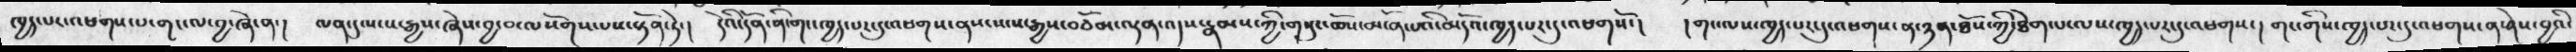ཁྱད་པར་འཕགས་པ་གང་ལ་བྱ་ཞེ་ན་།  ལན་དུ་སངས་རྒྱས་ཞེས་བྱ་བ་ལསོགས་པས་སྟོན་ཏེ་།   དེའི་དོན་ནི་གང་ཁྱད་པར་དུ་འཕགས་ནས་སངས་རྒྱས་བཅོམ་ལྡན་འདས་རྣམས་ཀྱི་གསུང་ཆོས་མངོན་པའི་མདོའ་ཁྱད་པར་དུ་འཕགསོ་།  ། གང་ལས་ཁྱད་པར་དུ་འཕགས་ན་ཉན་ཐོས་ཀྱི་ཐེག་པ་ལས་ཁྱད་པར་དུ་འཕགས་།  གང་གིས་ཁྱད་པར་དུ་འཕགས་ན་ཤེས་བྱའི་
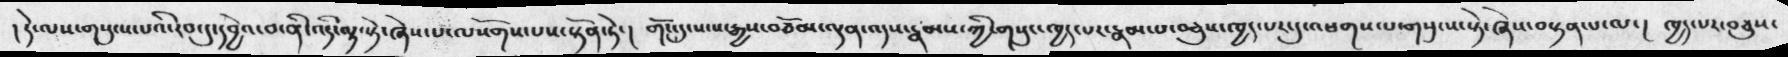།དེ་ལས་གསུངས་པའི་རབ་དུ་དབྱེའ་བ་ནི་འདི་ལྟ་སྟེ་ཞེས་པ་ལསོགས་པས་སྟོན་ཏེ་།  གོང་དུ་སངས་རྒྱས་བཅོམ་ལྡན་འདས་རྣམས་ཀྱི་གསུང་ཁྱད་པར་རྣམ་པ་བཅུས་ཁྱད་པར་དུ་འཕགས་པ་གསུངས་སྟེ་ཞེས་བསྟན་པ་ལ་།  ཁྱད་པར་བཅུས་
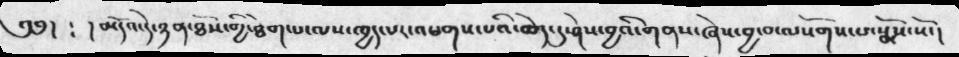༄༅།  ༴ །མདོའ་དེ་ཉན་ཐོས་གྱི་ཐེག་པ་ལས་ཁྱད་པར་འཕགས་པའི་ཆེད་དུ་ཤེས་བྱའི་གནས་ཞེས་བྱ་བ་ལསོགས་པ་སྨོས་སོ་།
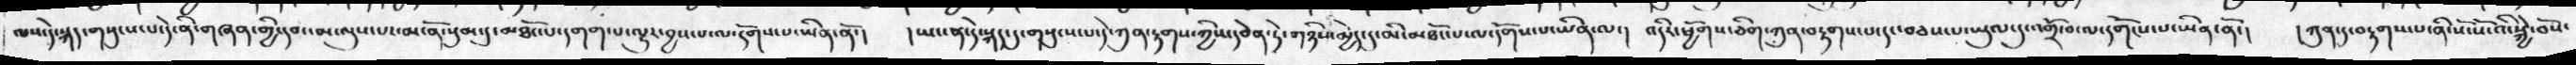ལས་དེ་སྐད་གསུངས་པ་དེ་ནི་གཞན་གྱི་དབང་མ་ལུས་པ་མངོན་སུམ་དུ་མཐོང་པ་དགག་པ་ལྟུར་བྱས་པ་ལ་དོགས་པ་ཡིན་ནོ་།   །ཡང་ན་དེ་སྐད་དུ་གསུངས་པ་དེ་ཀུན་རྟགས་ཀྱིས་དབེན་དེ་གཉིས་མྱེད་དུ་མི་མཐོང་པ་ལ་དགོས་པ་ཡིན་ལ་།  འདིར་ཕྱོགས་ཅིག་ཀུན་བརྟགས་པ་དང་བཅས་པ་ཡུལ་དུ་འགྲོ་བ་ལ་དགོངས་པ་ཡིན་ནོ་།  །ཀུན་དུ་བརྟགས་པ་ནི་སོ་སོ་འི་སྐྱེ་བོས་
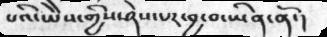པའི་ཡེེས་གྱིས་ཉེས་པར་བྱ་བ་ཡིན་ནོ་།
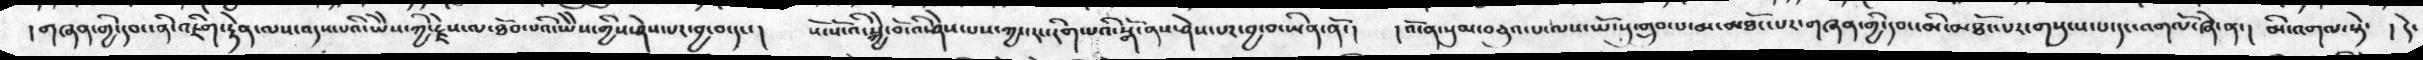།གཞན་གྱི་དབང་ནི་འཇིག་རྟེན་ལས་འདས་པའི་ཡེེས་ཀྱི་རྗེས་ལ་ཐོབ་པའི་ཡེེས་གྱིས་ཤེས་པར་བྱ་བ་དང་།  སོ་སོ་འི་སྐྱེ་བོ་འི་ཤེས་པས་ཀྱང་རང་རིག་པའི་སྒོ་ནས་ཤེས་པར་བྱ་བ་ཡིན་ནོ་། ། འོ་ན་སུམ་བཅུའ་པ་ལས་ཡོངསུ་གྲུབ་པ་མ་མཐོང་པར་གཞན་གྱི་དབང་མི་མཐོང་པར་གསུངས་པ་དང་འགལོ་ཞེ་ན་།  མི་འགལ་སྟེ་  ། དེ་
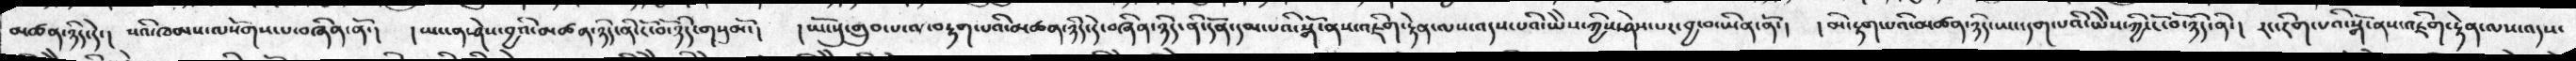མཚན་ཉིད་དེ་།  སའི་ཁམས་ལསོགས་པ་བཞིན་ནོ་།  ། ཡང་ན་ཤེས་བྱའི་མཚན་ཉིད་ནི་ངོ་བོ་ཉིད་གསུམོ་།  །ཡོངསུ་གྲུབ་པ་ལ་བརྟག་པའི་མཚན་ཉིད་དེ་བཞིན་ཉིད་ནི་དོན་དམ་པའི་སྒོ་ནས་འཇིག་རྟེན་ལས་འདས་པའི་ཡེེས་ཀྱིས་ཤེས་པར་བྱ་བ་ཡིན་ནོ་།  །མི་རྟག་པའི་མཚན་ཉིད་ཡང་དག་པའི་ཡེེས་ཀྱི་ངོ་བོ་ཉིད་ནི་།  རང་རིག་པའི་སྒོ་ནས་འཇིག་རྟེན་ལས་འདས་
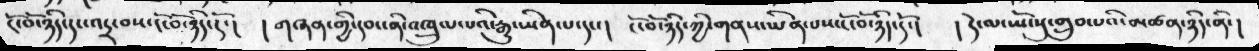ངོ་བོ་ཉིད་དང་འདྲ་བས་ངོ་བོ་ཉིད་དོ་།  ། གཞན་གྱི་དབང་ནི་འཁྲུལ་པའི་རྒྱུ་ཡིན་པ་དང་།   ངོ་བོ་ཉིད་ཀྱི་གནས་ཡིན་པས་ངོ་བོ་ཉིད་དོ་།  ། དེ་ལ་ཡོངསུ་གྲུབ་པའི་མཚན་ཉིད་ནི་།
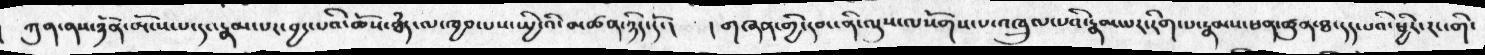ཀུན་ནས་ཉོན་མོངས་པ་དང་རྣམ་པར་བྱང་པའི་ཆོས་ཐཾད་ལ་ཁྱབ་པས་སྤྱི་འི་མཚན་ཉིད་དོ་།  ། གཞན་གྱི་དབང་ནི་ལུས་ལསོགས་པ་འཁྲུལ་པའི་རྣམ་པར་རིག་པ་རྣམས་ཕན་ཚུན་ཐ་དད་པའི་ཕྱིར་རང་གི་
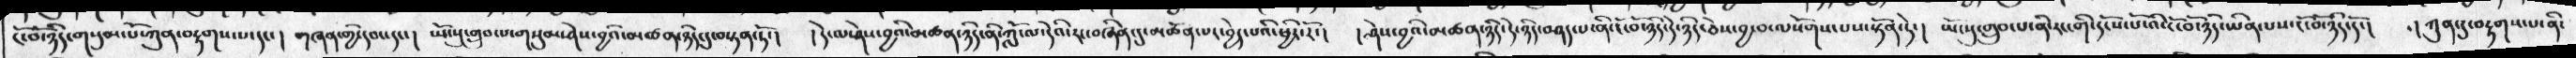ངོ་བོ་ཉིད་གསུམ་པོ་ཀུན་བརྟགས་པ་དང་།  གཞན་གྱི་དབང་དང་།  ཡོངསུ་གྲུབ་པ་གསུམ་ཤེས་བྱའི་མཚན་ཉིད་དུ་བསྟན་ཏོ་།   ། དེ་ལ་ཤེས་བྱའི་མཚན་ཉིད་ནི་ཀློ་ལ་དེའི་རང་བཞིན་དུ་མཚོན་པར་བྱེད་པའི་ཕྱིར་རོ་།  །ཤེས་བྱའི་མཚན་ཉིད་དེ་ཉིད་བཤད་པ་ནི་ངོ་བོ་ཉིད་དེ་ཉིད་ཅེས་བྱ་བ་ལསོགས་པས་སྟོན་དེ་།  ཡོངསུ་གྲུབ་པ་ནི་རང་གི་དངོས་པོ་འི་ངོ་བོ་ཉིད་ཡིན་པས་ངོ་བོ་ཉིད་དོ་།  ། ཀུན་དུ་བརྟགས་པ་ནི་
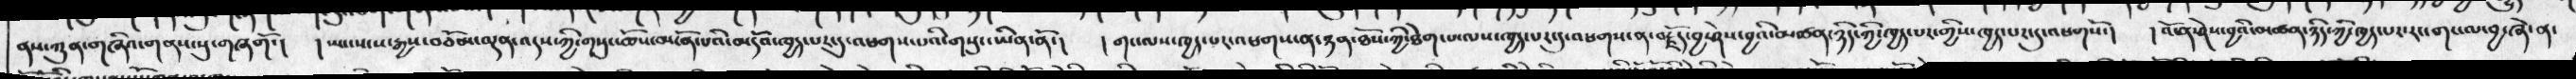ནས་ཀུན་གཞིའ་གནས་སུ་བཞགོ་།   ། ཡང་སངས་རྒྱས་བཅོམ་ལྡན་འདས་ཀྱི་གསུང་ཆོས་མངོན་པའི་མདོའ་ཁྱད་པར་དུ་འཕགས་པའི་གསུང་ཡིན་ནོ་།  ། གང་ལས་ཁྱད་པར་འཕགས་ན་ཉན་ཐོས་ཀྱི་ཐེག་པ་ལས་ཁྱད་པར་དུ་འཕགས་ན་བརྗོད་བྱ་ཤེས་བྱའི་མཚན་ཉིད་ཀྱི་ཁྱད་པར་གྱིས་ཁྱད་པར་དུ་འཕགསོ་།  ། འོ་ན་ཤེས་བྱའི་མཚན་ཉིད་ཀྱི་ཁྱད་པར་རང་གང་ལ་བྱ་ཞེ་ན་
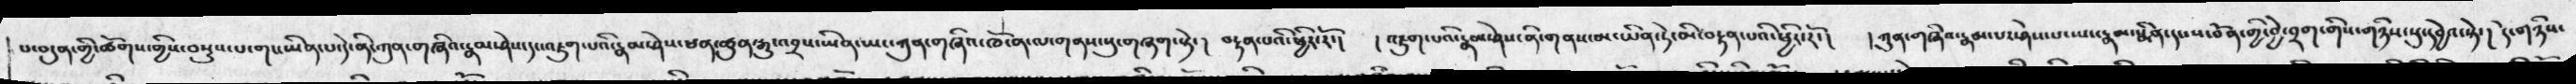པ་བདུན་གྱི་ཚོགས་གྱིས་བསྡུས་པ་གང་ཡིན་པ་དེ་ནི་ཀུན་གཞིའ་རྣམ་ཤེས་དང་འཇུག་པའི་རྣམ་ཤེས་ཕན་ཚུན་རྒྱུ་འབྲས་ཡིན་ཡང་ཀུན་གཞིའ་ཁོ་ན་ལ་གནས་སུ་བཞག་སྟེ་།  བརྟན་པའི་ཕྱིར་རོ་།  ། འཇུག་པའི་རྣམ་ཤེས་ནི་གནས་མ་ཡིན་དེ་མི་བརྟན་པའི་ཕྱིར་རོ་།  ། ཀུན་གཞིའ་རྣམ་པར་ཤེས་པ་ཡང་རྣམ་སྨིན་དང་ས་བོན་གྱི་བྱེ་བྲག་གིས་གཉིས་སུ་དབྱེའ་སྟེ་།  དེ་གཉིས་
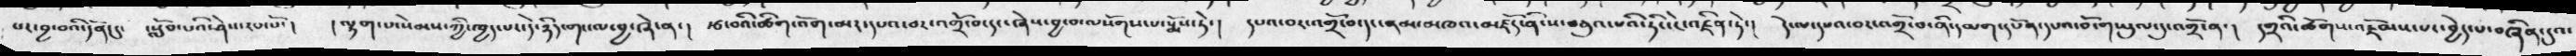པར་བྱ་བའི་དོན་དུ་  ་སློབ་པའི་ཤེས་རབ་བོ་།  །ལྷག་པ་སེམས་ཀྱི་ཁྱད་པར་དེ་ཉིད་གང་ལ་བྱ་ཞེ་ན་།  རྩ་བའི་ཚིག་འོག་མར་དཔའ་བར་འགྲོ་བ་དང་ཞེས་བྱ་བ་ལསོགས་པ་སྨོས་ཏེ་། དཔའ་བར་འགྲོ་བ་དང་ནམ་མཁའ་མཛོད་ནི་ས་བཅུའ་པའི་ཏིང་ངེ་འཛིན་ཏེ་།  དེ་ལ་དཔའ་བར་འགྲོ་བ་ནི་དམག་དཔོན་དཔའ་བོ་གཡུལ་དུ་འགྲོ་ན་།  དགྲའི་ཚོགས་འཇོམས་པར་བྱེད་པ་བཞིན་དུའ་
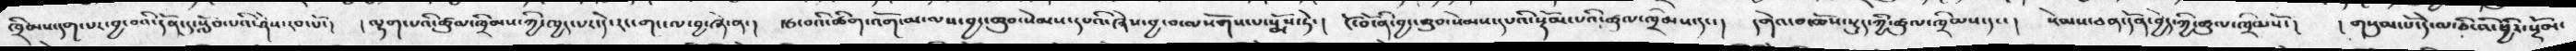ཁྲིམས་དག་པར་བྱ་བའི་དོན་དུ་སློབ་པའི་ཤེས་རབ་བོ་།  ། ལྷག་པའི་ཚུལ་ཁྲིམས་ཀྱི་ཁྱད་པར་དེ་རང་གང་ལ་བྱ་ཞེ་ན་།  རྩ་བའི་ཚིག་འོག་མ་ལས་བྱང་ཆུབ་སེམས་དཔའི་ཞེས་བྱ་བ་ལསོགས་པ་སྨོས་ཏེ་།  ངོ་བོ་ནི་བྱང་ཆུབ་སེམས་དཔའི་སྡོམ་པའི་ཚུལ་ཁྲིམས་དང་།  དགེའ་བ་ཆོས་སྡུད་ཀྱི་ཚུལ་ཁྲིམས་དང་།  སེམས་ཅན་དོན་བྱེད་ཀྱི་ཚུལ་ཁྲིམསོ་།   ། གསུམ་པོ་དེ་ལ་ཅི་འི་ཕྱིར་སྡོམ་
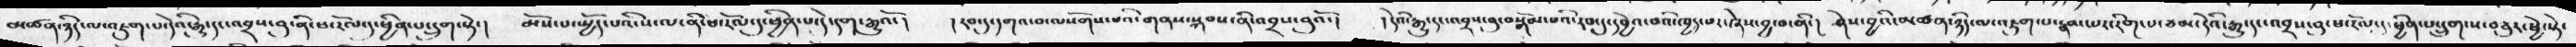མཚན་ཉིད་ལ་འཇུག་པ་དེའི་རྒྱུ་དང་འབྲས་བུ་ནི་ཕ་རོལ་དུ་ཕྱིན་པ་དྲུག་ཏེ་།  མོས་པ་སྤྱོད་པའི་ས་ལ་ནི་ཕ་རོལ་དུ་ཕྱིན་དེ་དག་རྒྱུའོ་།   །རབ་དུ་དགའ་བ་ལས་སོགས་པའི་གནས་སྐབས་ནི་འབྲས་བུའོ་།  །དེའི་རྒྱུ་དང་འབྲས་བུ་བསྒོམ་པའི་རབ་དུ་དབྱེའ་བའི་ཁྱད་ོར་ཞེས་བྱ་བ་ནི་།  ཤེས་བྱའི་མཚན་ཉིད་ལ་འཇུག་པ་རྣམ་པར་རིག་པ་ཙམ་དེའི་རྒྱུ་དང་འབྲས་བུ་ཕ་རོལ་དུ་ཕྱིན་དྲུག་ས་བཅུར་ཕྱེ་སྟེ་
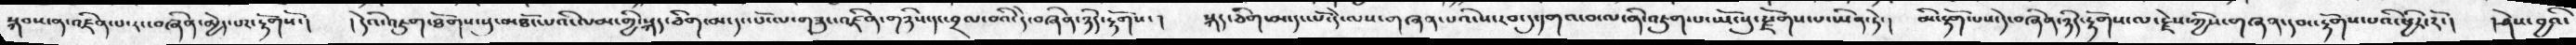སྐབས་ན་འཛིན་པ་རང་བཞིན་མྱེད་པར་རྟོགསོ་།  །དེའི་འཇུག་ཐོགས་སུ་མཐོང་པའི་ལམ་གྱི་སྐད་ཅིག་མ་དང་པོ་གཟུང་འཛིན་གཉིས་དང་བྲལ་བའི་དེ་བཞིན་ཉིད་རྟོགས་།  སྐད་ཅིག་མ་དང་པོ་དེ་ལས་གཞན་པའི་ས་རབ་དུ་དགའ་བ་ལ་ནི་འཇུག་པ་ཡོངསུ་སྫོགས་པ་ཡིན་ཏེ་།  མི་རྟོག་པས་དེ་བཞིན་ཉིདརྟོགས་ལ་རྗེས་ཀྱིས་གཞན་དབང་རྟོགས་པའི་ཕྱིར་རོ་།  །ཤེས་བྱའི་
